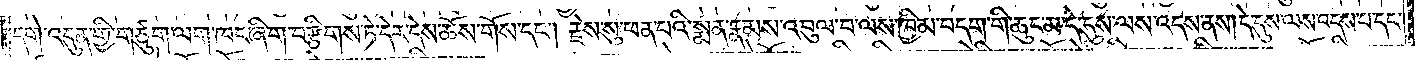དགེ་འདུན་གྱི་གཙུག་ལག་ཁང་ཞིག་བརྩིགས་ཏེ་དེར་དེས་ཆོས་གོས་དང༌། རྗེས་སུ་ཕན་པའི་སྨན་རྣམས་འབུལ་བ་ལས་ཁྱིམ་བདག་གི་ཆུང་མ་དེ་དུས་ལས་འདས་ནས། དེ་དུས་ལས་འདས་པ་དང་
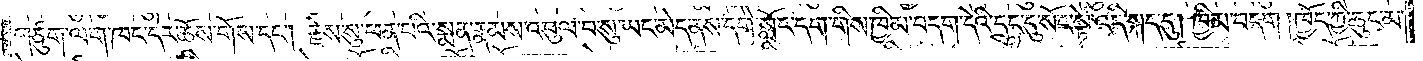གཙུག་ལག་ཁང་དེར་ཆོས་གོས་དང༌། རྗེས་སུ་ཕན་པའི་སྨན་རྣམས་འབུལ་བ་སུ་ཡང་མེད་ནས་དགེ་སློང་དག་གིས་ཁྱིམ་བདག་དེའི་དྲུང་དུ་སོང་སྟེ་འདི་སྐད་དུ། ཁྱིམ་བདག །ཁྱོད་ཀྱི་ཆུང་མ་
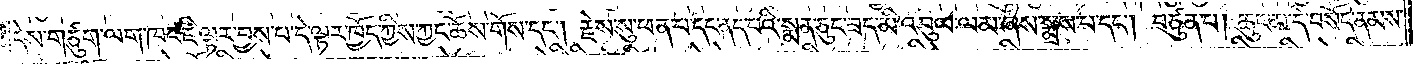དེས་གཙུག་ལག་ཁང་ཇི་ལྟར་བྱས་པ་དེ་ལྟར་ཁྱོད་ཀྱིས་ཀྱང་ཆོས་གོས་དང༌། རྗེས་སུ་ཕན་པ་དང་ནད་པའི་སྨན་ཅུང་ཟད་མི་འབུལ་ལམ་ཞེས་སྨྲས་པ་དང༌། བཙུན་པ། ཆུང་མ་དེ་བསོད་ནམས་
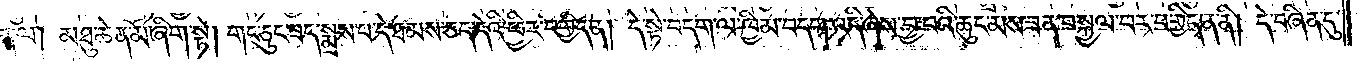དང་ལྡན་ལ། མཐུ་ཆེན་མོ་ཞིག་སྟེ། གང་ཅུང་ཟད་སྨྲས་པ་དེ་ཐམས་ཅད་དེའི་ཕྱིར་བགྱིད་ན། དེ་སྟེ་བདག་ལ་ཁྱིམ་བདག་འདི་ཞེས་བྱ་བའི་ཆུང་མས་ཟན་བསྐྱལ་བར་བགྱིད་ན་ནི། དེ་བཞིན་དུ་
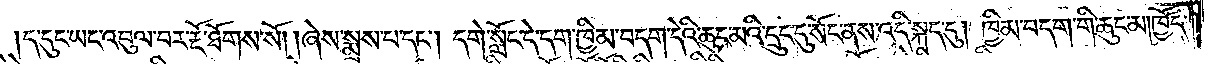ད་དུང་ཡང་འབུལ་བར་རྔོ་ཐོགས་སོ། །ཞེས་སྨྲས་པ་དང༌། དགེ་སློང་དེ་དག་ཁྱིམ་བདག་དེའི་ཆུང་མའི་དྲུང་དུ་སོང་ནས་འདི་སྐད་དུ། ཁྱིམ་བདག་གི་ཆུང་མ། ཁྱོད་
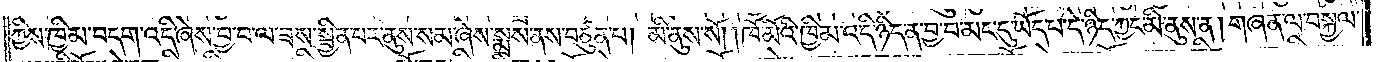ཀྱིས་ཁྱིམ་བདག་འདི་ཞེས་བྱ་བ་ལ་ཟས་སྦྱིན་པར་ནུས་སམ་ཞེས་སྨྲས་ནས་བཙུན་པ། མི་ནུས་སོ། །ཁོ་མོའི་ཁྱིམ་འདི་ཉིད་ན་བྱ་བ་མང་དུ་ཡོད་པ་དེ་ཉིད་ཀྱང་མི་ནུས་ན། གཞན་ལ་བསྐྱལ་
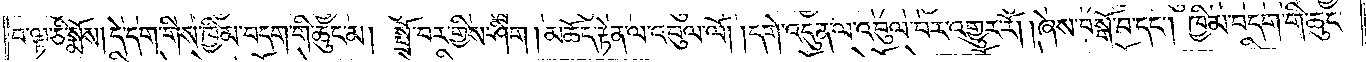བ་ལྟ་ཅི་སྨོས། དེ་དག་གིས་ཁྱིམ་བདག་གི་ཆུང་མ། སྤྲོ་བར་གྱིས་ཤིག །མཆོད་རྟེན་ལ་འབུལ་ལོ། །དགེ་འདུན་ལ་འབུལ་བར་འགྱུར་རོ། །ཞེས་བསྒོ་བ་དང༌། ཁྱིམ་བདག་གི་ཆུང་
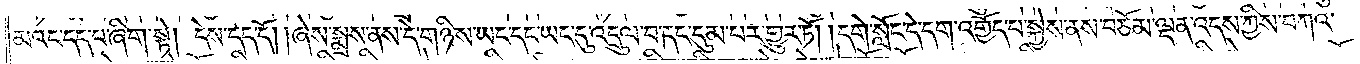མའང་དད་པ་ཞིག་སྟེ། དེས་དད་དོ། །ཞེས་སྨྲས་ནས་དེ་གཉིས་ཡང་དང་ཡང་དུ་འདྲུལ་བ་དང་དུམ་པར་གྱུར་ཏོ། །དགེ་སློང་དེ་དག་འགྱོད་པ་སྐྱེས་ནས་བཅོམ་ལྡན་འདས་ཀྱིས་བཀའ་
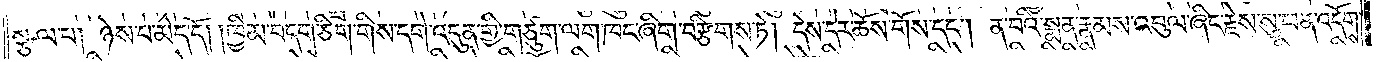སྩལ་པ། ཉེས་པ་མེད་དོ། །ཁྱིམ་བདག་ཅིག་གིས་དགེ་འདུན་གྱི་གཙུག་ལག་ཁང་ཞིག་བརྩིགས་ཏེ། དེས་དེར་ཆོས་གོས་དང༌། ན་བའི་སྨན་རྣམས་འབུལ་ཞིང་རྗེས་སུ་ཕན་འདོགས་
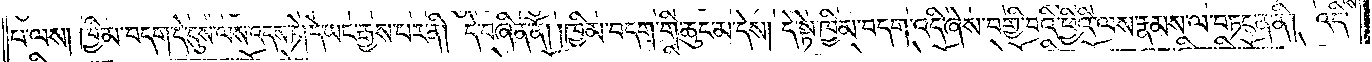པ་ལས། ཁྱིམ་བདག་དེ་དུས་ལས་འདས་ཏེ། དེ་ཡང་རྒྱས་པར་ནི། དེ་བཞིན་ནོ། །ཁྱིམ་བདག་གི་ཆུང་མ་དེས། དེ་སྟེ་ཁྱིམ་བདག་འདི་ཞེས་བགྱི་བའི་ཕྱིའི་ལས་རྣམས་ལ་བཏང་ན་ནི། འདི་
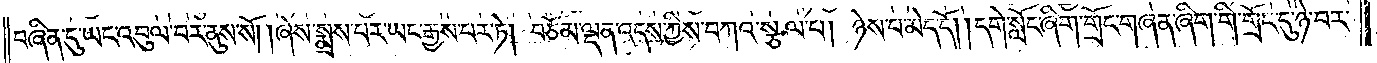བཞིན་དུ་ཡང་འབུལ་བར་ནུས་སོ། །ཞེས་སྨྲས་པར་ཡང་རྒྱས་པར་ཏེ། བཅོམ་ལྡན་འདས་ཀྱིས་བཀའ་སྩལ་པ། ཉེས་པ་མེད་དོ། །དགེ་སློང་ཞིག་གྲོང་གཞན་ཞིག་གི་གྲོང་དུ་ཉེ་བར་
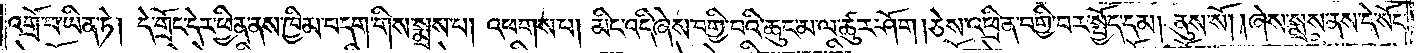འགྲོ་བ་ཡིན་ཏེ། དེ་གྲོང་དེར་ཕྱིན་ནས་ཁྱིམ་བདག་གིས་སྨྲས་པ། འཕགས་པ། མིང་འདི་ཞེས་བགྱི་བའི་ཆུང་མ་ལ་ཚུར་ཤོག །ཅེས་འཕྲིན་བགྱི་བར་སྤྱོད་དམ། ནུས་སོ། །ཞེས་སྨྲས་ནས་དེ་སོང་
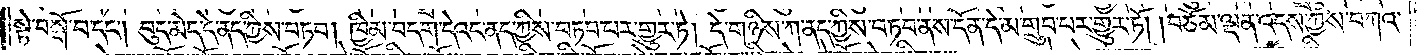སྟེ་བསྒོ་བ་དང༌། བུད་མེད་དེ་ནད་ཀྱིས་བཏབ། ཁྱིམ་བདག་དེའང་ནད་ཀྱིས་བཏབ་པར་གྱུར་ཏེ། དེ་གཉིས་ཀ་ནད་ཀྱིས་བཏབ་ནས་དོན་དེ་མ་གྲུབ་པར་གྱུར་ཏོ། །བཅོམ་ལྡན་འདས་ཀྱིས་བཀའ་
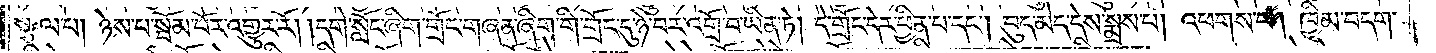སྩལ་པ། ཉེས་པ་སྦོམ་པོར་འགྱུར་རོ། །དགེ་སློང་ཞིག་གྲོང་གཞན་ཞིག་གི་གྲོང་དུ་ཉེ་བར་འགྲོ་བ་ཡིན་ཏེ། དེ་གྲོང་དེར་ཕྱིན་པ་དང༌། བུད་མེད་དེས་སྨྲས་པ། འཕགས་པ། ཁྱིམ་བདག་
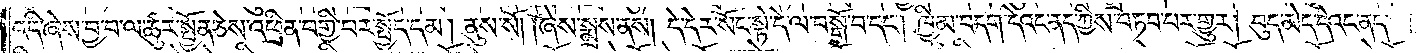འདི་ཞེས་བྱ་བ་ལ་ཚུར་སྤྱོན་ཅེས་འཕྲིན་བགྱི་བར་སྤྱོད་དམ། ནུས་སོ། །ཞེས་སྨྲས་ནས། དེ་དེར་སོང་སྟེ་དེ་ལ་བསྒོ་བ་དང༌། ཁྱིམ་བདག་དེའང་ནད་ཀྱིས་བཏབ་པར་གྱུར། བུད་མེད་དེའང་ནད་
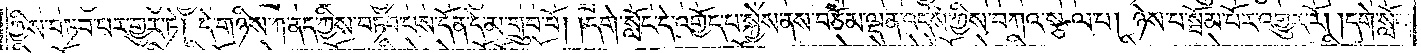ཀྱིས་བཏབ་པར་གྱུར་ཏེ། དེ་གཉིས་ཀ་ནད་ཀྱིས་བཏབ་པས་དོན་དེ་མ་གྲུབ་བོ། །དགེ་སློང་དེ་འགྱོད་པ་སྐྱེས་ནས་བཅོམ་ལྡན་འདས་ཀྱིས་བཀའ་སྩལ་པ། ཉེས་པ་སྦོམ་པོར་འགྱུར་རོ། །དགེ་སློང་
